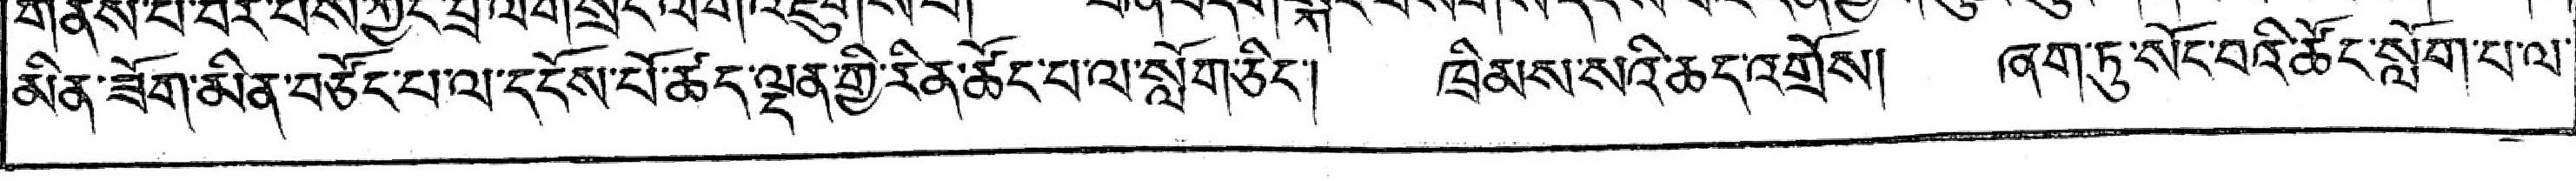མིན་ཟོག་མིན་བཙོང་པ་ལ་དངོས་པོ་ཚད་ལྡན་གྱི་རིན་ཚོང་པ་ལ་སློག་ཅིང་། ཁྲིམས་སའི་ཆད་འགྲོས། ཞག་ཏུ་སོང་བའི་ཚོང་སློག་པ་ལ་
